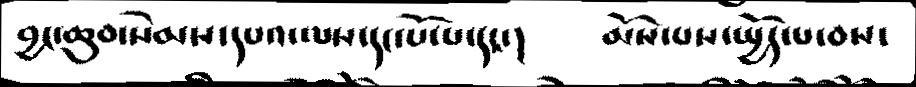བྱང་ཆུབ་སེམས་དཔའ་ལས་དང་པོ་པ་དང་།    མོས་པས་སྤྱོད་པ་བས་
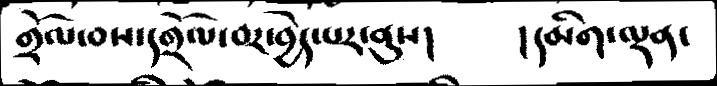གྲོལ་བས་དགྲོལ་བར་བྱེད་པར་ནུས།       །དམིག་ལྡན་
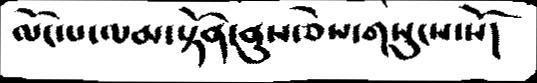ལོང་པ་ལམ་སྟོན་ནུས་ཅེས་གསུངས་སོ།
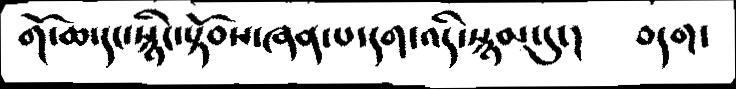གོ་ཆ་དང་སྙིང་སྟོབས་ཞན་པ་དག་འདི་སྙམ་དུ་།       བདག་
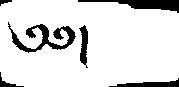༄༅།
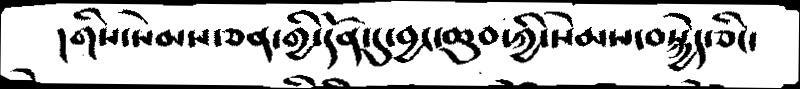།གིས་སེམས་ཅན་གྱི་དོན་དུ་བྱང་ཆུབ་ཀྱི་སེམས་བསྐྱེད་ཅིང་
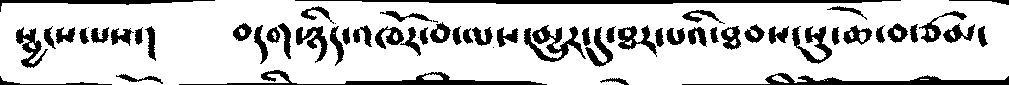སྦྱངས་པས་།   བདག་ཉིད་འཁོར་བ་ལས་མྱུར་དུ་ཐར་པའི་ཐབས་སུ་ཆེ་བ་ཙམ་
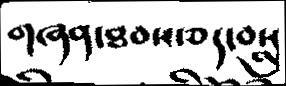གཞན་ཐབས་ཅད་བསླུ
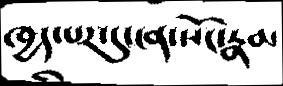ཁྱད་པར་དུ་ངན་སོང་རྣམ
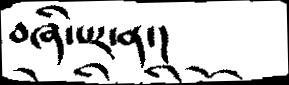བཞི་པར་ན་།
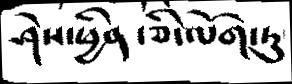ཤེས་ཕྱིན་ཅི་ལོག་ཏུ་
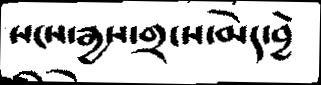སངས་རྒྱས་གྲངས་མེད་བྱེ
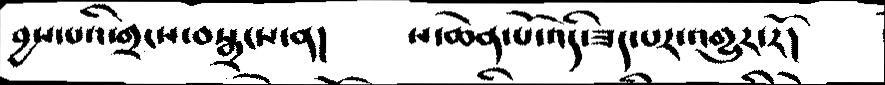བྱས་པའི་གྲངས་བསྒྲངས་ན།  ས་ཆེན་པོ་འདི་ཟད་པར་འགྱུར་རོ།
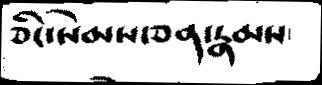ཅིང་སེམས་ཅན་རྣམས་
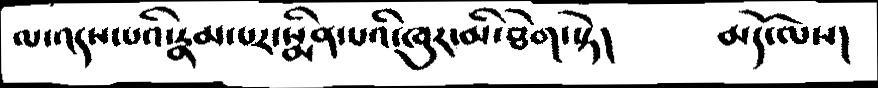ལ་འདས་པའི་རྣམ་པར་སྨིན་པའི་ཁུར་མི་ཐེག་སྟེ།    མདོ་ལས།
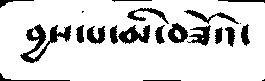བྱས་པ་མི་བཟོ་དང
